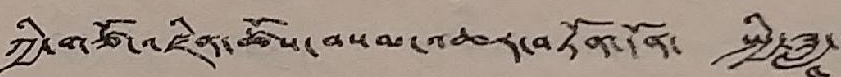ཀྱི་གཙོ་འཛིན་ཚོས་བསམ་འཆར་བཏོན་དོན་ སྤྱི་ཟླ་
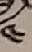༤
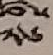༢༦
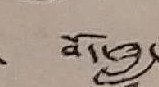བོད་ཟླ་
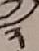༢
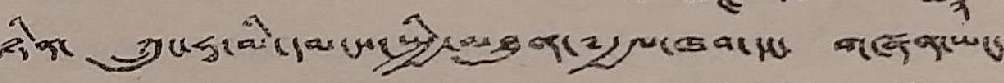ཉིན་ ཀྲུང་ཧྭ་མི་དམངས་སྤྱི་མཐུན་༸རྒྱལ་ཁབ་དང་ གཞན་ཡང་
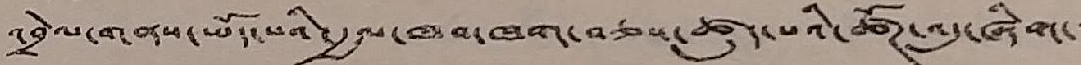འབྲེལ་གནས་ཡོད་པའི་རྒྱལ་ཁབ་ཁག་བཅས་ཚུད་པའི་ཚོཊ་འདུ་ཞིག་་
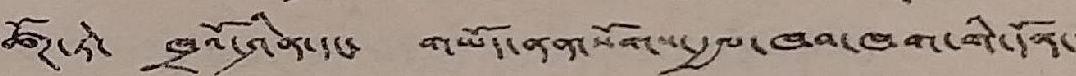ཚོཊ་ཏེ་ ཁྲའོ་ཤིན་དང་ གཡོད་ནན་སོག་རྒྱལ་ཁབ་ཁག་གི་དོན་་
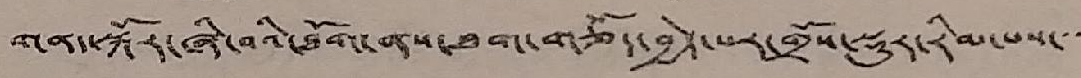གནད་སྐོར་ཞི་བའི་ཐོག་ནས་ཐག་གཅོད་བྱེད་པར་གྲོས་སྡུར་རིམ་པས་་་་
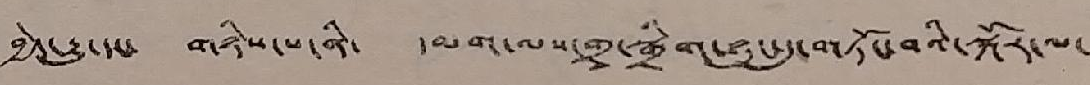བྱེད་རྒྱུ་དང་ གཉིས་པ་ནི་ དམག་ལས་གྲྭ་སྒྲིག་ཉུང་དུ་གཏོང་བའི་སྐོར་ལ་
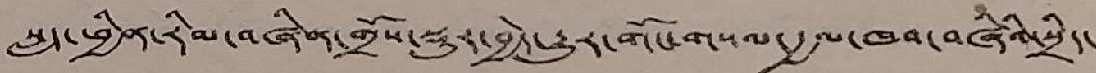སླད་ཕྱིན་རིམ་བཞིན་གྲོས་སྡུར་བྱེད་རྒྱུར་གོང་གསལ་རྒྱལ་ཁབ་བཞིའི་སྲིད་
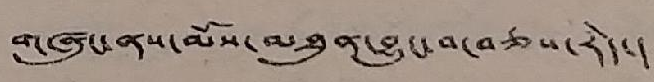གཞུང་ནས་མོས་མཐུན་བྱུང་བ་བཅས་རེད་།
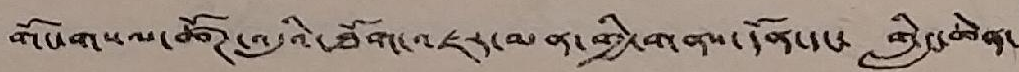གོང་གསལ་ཚོཊ་འདུའི་ཐོག་འཇར་མན་གྱི་གནས་དོན་དང་ གླིང་ཆེན་
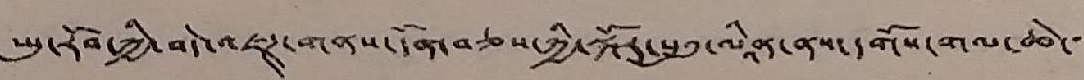ཨུ་རོབ་ཀྱི་བདེ་འཇཊ་གནས་དོན་བཅས་ཀྱི་སྐོར་སུའུ་ལཱིན་ནས་དགོས་གལ་ཆེ་་་
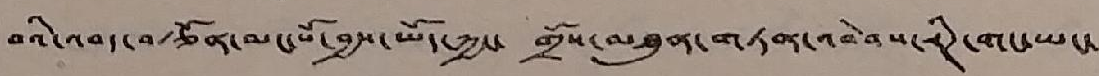བའི་འབད་བརྩོན་མང་པོ་བྱས་ཡོད་ཀྱང་ གྲོས་མཐུན་གཏན་འབེབས་རིཊ་གང་ཡང་
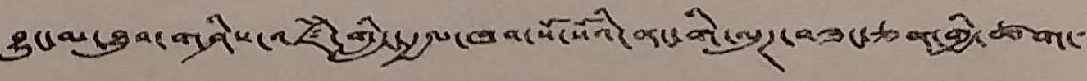བྱུང་མ་ཐུབ་གཤིས་འཛཾ་གླིང་རྒྱལ་ཁབ་སོ་སོའི་ནང་གི་ལུཊ་བཟང་ཅན་གྱི་ཚག་་་
